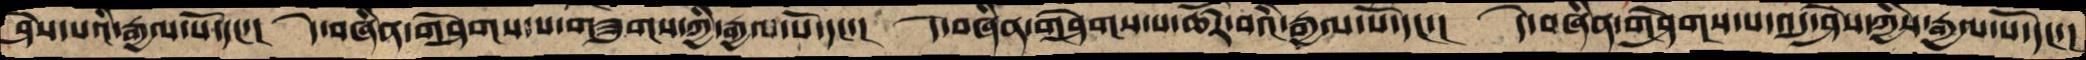ཤེས་པའི་རྒྱལ་པོ་དང་།  དེ་བཞིན་གཤེགས་པ་གཟུགས་ཀྱི་རྒྱལ་པོ་དང་།  དེ་བཞིན་གཤེགས་པ་ཚོར་བའི་རྒྱལ་པོ་དང་།  དེ་བཞིན་གཤེགས་པ་འདུ་ཤེས་ཀྱིས་རྒྱལ་པོ་དང་།
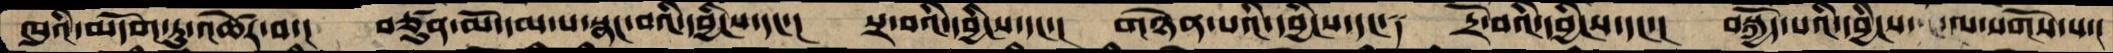ཁུའི་མདོག་ཏུ་འཚེར་བ་།   བཙུན་མོ་དམ་པ་སྣང་བའི་དབྱིངས་དང་།  སྲ་བའི་དབྱིངས་དང་།  གཉེན་པའི་དབྱིངས་དང་།  དྲོ་བའི་དབྱིངས་དང་།  བསྐྱོད་པའི་དབྱིངས་  ལ་སོགས་པ་།
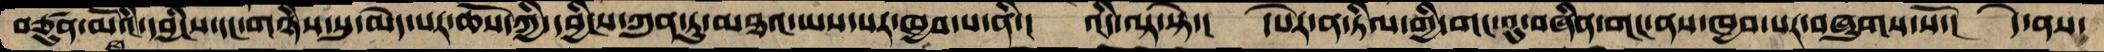བཙུན་མོའི་དབྱིངས་དང་གཉིས་སུ་མེད་པར་ཆོས་ཀྱི་དབྱིངས་ཀུན་ཏུ་མཐའ་ཡས་པར་ཁྱབ་པ་ནི་། འདི་ལྟ་སྟེ་། དཔེར་ན་ཏིལ་གྱི་གང་བུ་བཞིན་གང་ནས་ཁྱབ་པར་བཞུགས་སོ་། དེ་ནས་
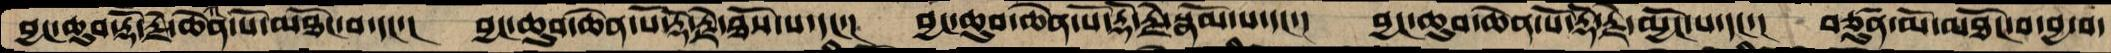བྱང་ཆུབ་རྡོ་རྗེ་ཆེན་པོ་མཐོང་བ་དང་།  བྱང་ཆུབ་ཆེན་པོ་རྡོ་རྗེ་ཐོས་པ་དང་།  བྱང་ཆུབ་ཆེན་པོ་རྡོ་རྗེ་སྣོམ་པ་དང་།  བྱང་ཆུབ་ཆེན་པོ་རྡོ་རྗེ་མྱོང་པ་དང་།  བཙུན་མོ་མཐོང་བ་བྱ་བ་
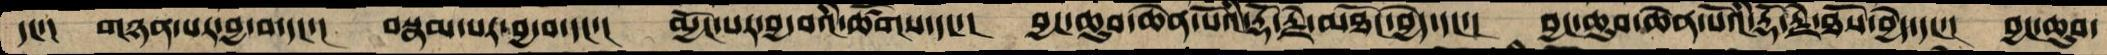དང་།  གཉན་པར་བྱ་བ་དང་།  བསྣམ་པར་བྱ་བ་དང་།  མྱོང་པར་བྱ་བའི་ཚོགས་དང་།  བྱང་ཆུབ་ཆེན་པོའི་རྡོ་རྗེ་མཐོང་བྱེད་དང་།  བྱང་ཆུབ་ཆེན་པོའི་རྡོ་རྗེ་ཐོས་བྱེད་དང་།  བྱང་ཆུབ་
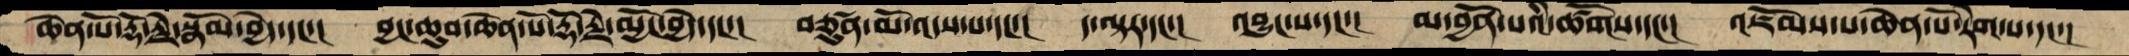ཆེན་པོ་རྡོ་རྗེ་སྣོམ་བྱེད་དང་།  བྱང་ཆུབ་ཆེན་པོ་རྡོ་རྗེ་མྱོང་བྱེད་དང་།  བཙུན་མོ་འདས་པ་དང་།  ད་ལྟར་དང་།  འབྱུང་པ་དང་།  མ་བྱོན་པའི་ཚོགས་དང་།  འཇོམས་པ་ཆེན་པོ་རེག་པ་དང་།
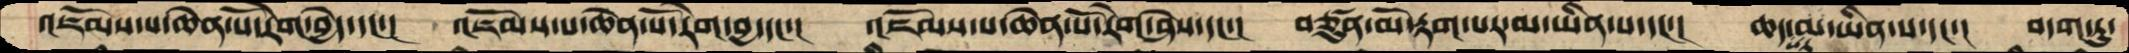འཇོམས་པ་ཆེན་པོ་རེག་བྱེད་དང་། འཇོམས་པ་ཆེན་པོ་རེག་བྱ་དང་། འཇོམས་པ་ཆེན་པོ་རེག་ཤེས་དང་། བཙུན་མོ་རྟག་པར་མ་ཡིན་པ་དང་། ཆད་པར་མ་ཡིན་པ་དང་། བདག་ཏུ་
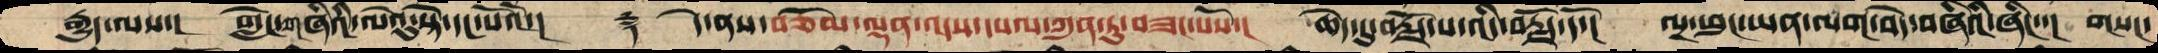རྒྱུད་ལས་།  གླེང་གཞིའི་ལེའུ་སྟེ་དང་པོའོ་།    ࿑   དེ་ནས་བཅོམ་ལྡན་འདས་དཔལ་ཀུན་ཏུ་བཟང་པོས་།  ཆེད་དུ་བརྗོད་པ་འདི་བརྗོད་དོ་།  ལྔ་ཕུང་ཡན་ལག་བདེ་བཞིའི་ཞིང་་།  གསང་
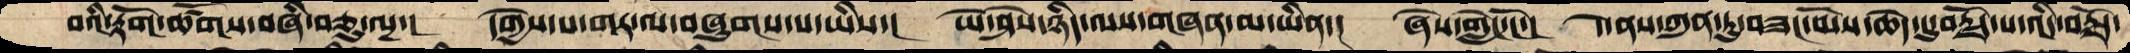བའི་རྟོག་ཚོགས་བཞི་བཅུ་ལྔ་།  དགྱེས་པ་གར་ལ་བཞུགས་པ་ཡིས་།  ཡེ་ཤེས་ཉིད་ལས་གཞན་མ་ཡིན་།   ཞེས་གླེང་ངོ་།  དེ་ནས་ཀུན་ཏུ་བཟང་མོས་ཆེད་དུ་བརྗོད་པ་འདི་བརྗོད་
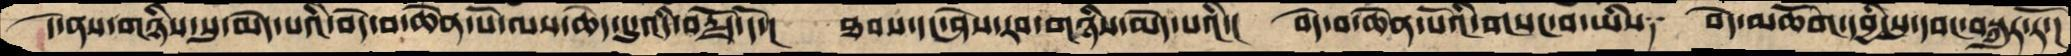དེ་ནས་གཉིས་སུ་མེད་པའི་བདེ་བ་ཆེན་པོ་ལས་ཆེད་དུ་འདི་བརྗོད་དོ་།   ཐབས་དང་ཤེས་རབ་གཉིས་མེད་པའི་།  བདེ་བ་ཆེན་པོའི་གསང་བ་ཡིས༑   བདེ་མཆོག་དབྱིངསུ་དབང་བསྐུར་རོ་།
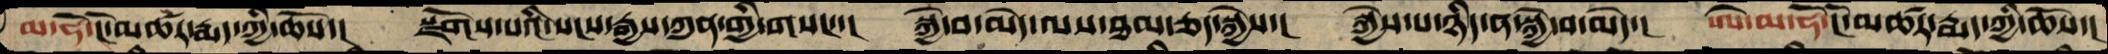མ་ཧོ་ངོ་མཚར་རྨད་ཀྱི་ཆོས་།   སྫོགས་པའི་སངས་རྒྱས་ཀུན་གྱི་གསང་་།   སྐྱེ་བ་མེད་ལས་ཐམས་ཅད་སྐྱེས་།   སྐྱེས་པ་ཉིད་ན་སྐྱེ་བ་མེད་།  ཨེ་མ་ཧོ་ངོ་མཚར་རྨད་ཀྱི་ཆོས་།
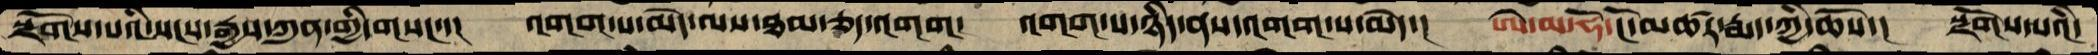སྫོགས་པའི་སངས་རྒྱས་ཀུན་གྱི་གསང་་།   འགག་པ་མེད་ལས་ཐམས་ཅད་འགག།  འགག་པ་ཉིད་ནས་འགག་པ་མེད་།  ཨེ་མ་ཧོ་ངོ་མཚར་རྨད་ཀྱི་ཆོས་།  སྫོགས་པའི་
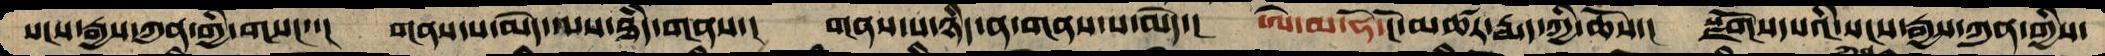སངས་རྒྱས་ཀུན་གྱི་གསང་་། གནས་པ་མེད་པས་ཐཾད་གནས་།  གནས་པ་ཉིད་ན་གནས་པ་མེད་།  ཨེ་མ་ཧོ་ངོ་མཚར་རྨད་ཀྱི་ཆོས་།  སྫོགས་པའི་སངས་རྒྱས་ཀུན་གྱིས་
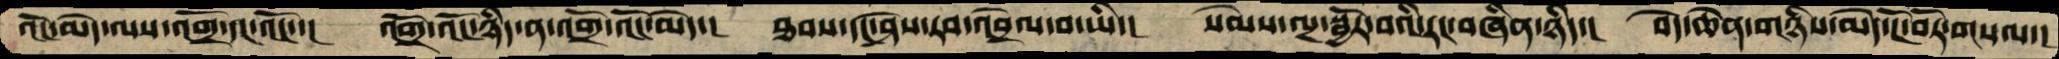འོང་མེད་ལས་འགྲོ་དང་འོང་་།  འགྲོ་འོང་ཉིད་ན་འགྲོ་འོང་མེད་།  ཐབས་དང་ཤེས་རབ་འབྲེལ་བ་ཡི་།  སེམས་ལྔ་སྦྱོར་བའི་རང་བཞིན་ཉིད་།  བདེ་ཆེན་གཉིས་མེད་ངོ་བོར་གསལ་།
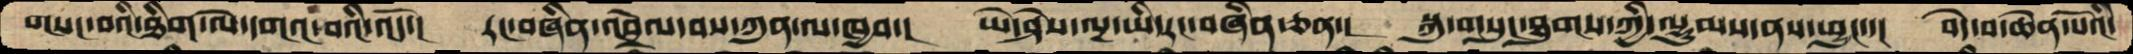གསུང་བའི་ཐིག་ལེ་དགའ་བའི་འོད་།  རང་བཞིན་འབྲེལ་བས་ཀུན་ལ་ཁྱབ་།  ཡེ་ཤེས་ལྔ་ཡི་རང་བཞིན་ཅན་།  སྐུ་གསུང་ཐུགས་ཀྱི་ལྷུམས་ནས་ཕྱུང་་།  བདེ་བ་ཆེན་པོའི་
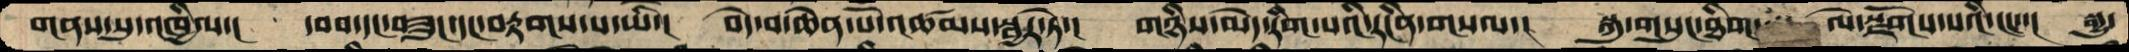གནས་སུ་འཁྱིལ་།  དབབ་དང་བཟུང་དང་བརྟགས་པ་ཡི་།  བདེ་བ་ཆེན་པོ་འཚམས་སྦྱར་ཏེ་།  གཉིས་མེད་རིག་པའི་རངིན་གསལ་།  སྐུ་གསུང་ཐིག་  ལེ་སྫོགས་པའི་ངང་་།  སྒྱུ་
